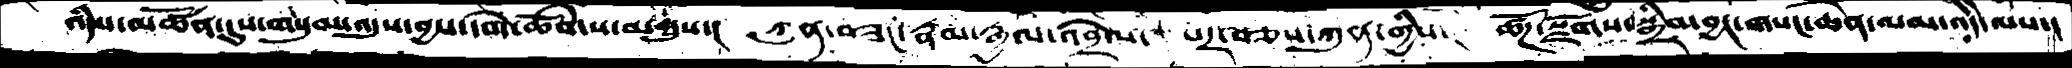འདིས་མཚོན་དུས་གསུམ་འདུས་བྱས་དགེ་ཚོགས་མཐུས་།  ཀུན་བཟང་རྣམ་རྒྱལ་འབྲེལ་  པར་བཅས་ཀུན་གྱིས་།  ཚོཌ་སྫོགས་སྒྲིབ་བྱང་གསང་ཆེན་ལམ་འདི་ལས་།
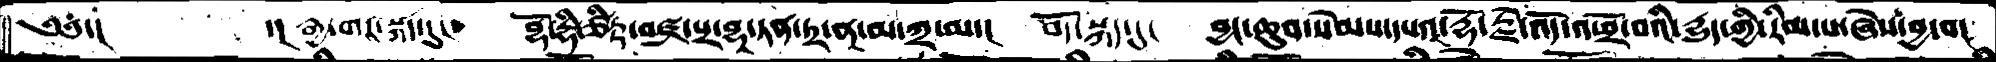༄༅་།     ་།རྒྱ་གར་སྐད་དུ་།  བྷོ་དྷིཙིཏྟ་བཛྲ་པྲ་བྷཱ་ཏན་ཏྲ་ནཱ་མ་ཀྲ་མ་།  བོད་སྐད་དུ།   བྱང་ཆུབ་སེམས་དཔའ་རྡོ་རྗེ་འོད་འཕྲོ་བའི་དྱུད་ཀྱི་རིམ་པ་ཞེས་བྱ་བ།
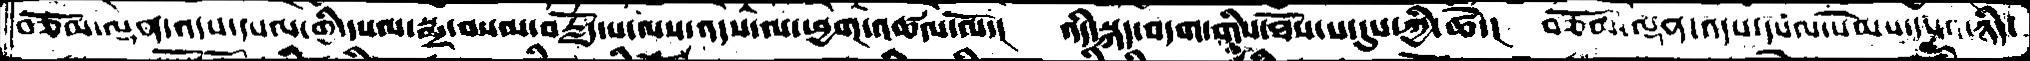བཅོམ་ལྡན་འདས་དཔལ་གྱི་དཔལ་སྨྲ་བསམ་བརྗོད་པ་ལས་འདས་ལ་ཕྱག་འཚལ་ལོ་།  འདི་སྐད་བདག་གིས་ཐོས་པ་དུས་གྱི་ཚེ་།  བཅོམ་ལྡན་འདས་དཔལ་སེམས་དཔའ་ཉིད་
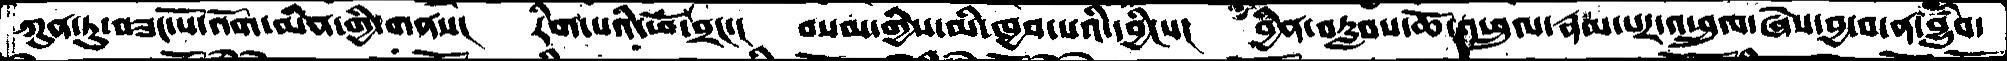ཀུན་ཏུ་བཟང་པོ་འོག་མིན་གྱི་གནས། རིག་པའི་ཕོ་བྲང་། བསམ་གྱིས་མི་ཁྱབ་པའི་དབྱིངས་། བྱིན་བརླབས་ཆོ་འཕྲུལ་རྣམ་པར་འཕྲུལ་ཞེས་བྱ་བ་ན་བྱུབཾ་
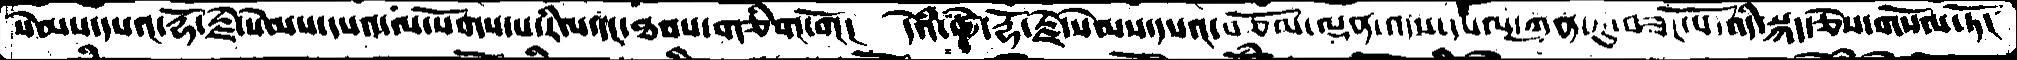སེམས་དཔའ་རྡོ་རྗེ་སེམས་དཔའ་ལ་སོགས་པ་རིལ་དང་ཐབས་གཅིག་གོ།  དེའི་ཚེ་རྡོ་རྗེ་སེམས་དཔའ་བཅོམ་ལྡན་འདས་དཔལ་ཀུན་ཏུ་བཟང་པོ་འདི་སྐད་ཅེས་གསོལ་ཏོ།
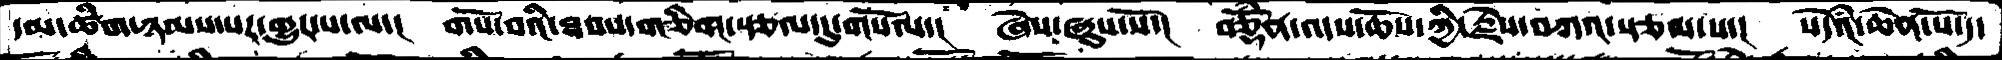དམ་ཚིག་ཉམས་པར་གྱུར་པ་ལ་།  གསོ་བའི་ཐབས་གཅིག་སྩལ་དུ་གསོལ་།  ཞེས་ཞུས་སོ་།  བཅྡོཾན་འདས་ཆོས་ཀྱི་རྗེས་བཀའ་སྩལ་པ་།  སོཾདའ་ཆེན་པོ་དུ་
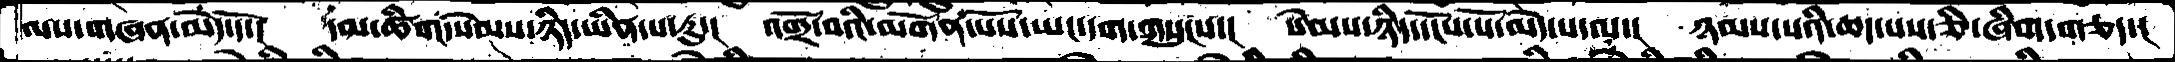ལས་གཞན་མེད་དོ་།  དམ་ཚིག་སེམས་ཉིད་ཡིན་པ་རུ་།  འགྲོ་བའི་མགོན་པོས་ཡང་དག་གསུངས་།  སེམས་ཉིད་དངོས་པོ་མེད་པ་ལ་།  ཉམས་པའི་ཆད་པས་ཅི་ཞིག་གཅད་།
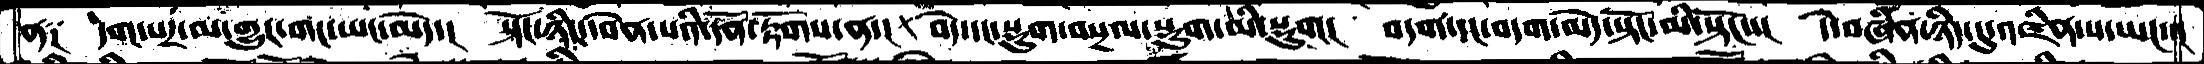ན༑  དག་པར་མ་གྱུར་གང་ཡང་མེད་།  སྟོང་ཉིད་དབེན་པའི་དོན་རྟོགས་ན་།  བདེ་དང་སྡུག་བསྔལ་སྡུག་མི་སྡུག།  བདག་དང་བདག་མེད་སྟོང་མི་སྟོང་།  དེ་བཞིན་ཉིད་དུ་འཛིན་པ་ཡང་་།
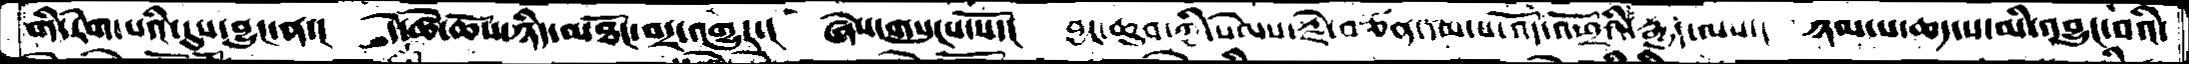གི་རེག་པའི་དུས་བྱུང་ན་།  དེ་ཚེ་ཆོས་ཉིད་མཐོང་བར་འགྱུར་།   ཞེས་གསུངས་སོ་།  བྱང་ཆུབ་ཀྱི་སེམས་རྗེ་བཙན་དམ་པ་འོད་འཕྲོའི་རྒྱུད་ལས་།  ཉམ་པ་ཆད་པ་མི་འབྱུང་་བའི་
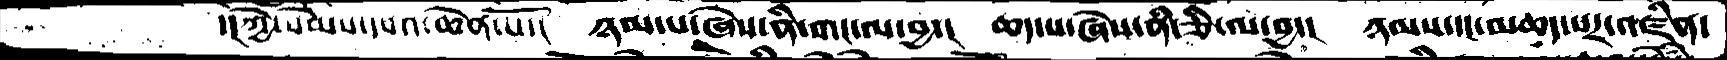་།ཀྱི་སེམས་དཔའ་ཆེན་པོ་།   ཉམ་པ་ཞེས་ནི་གང་ལ་བྱ་།  ཆད་པ་ཞེས་ནི་ཅི་ལ་བྱ་།  ཉམས་དང་མཆད་པར་འཛིན་
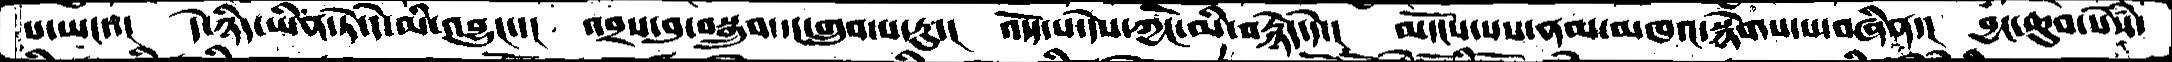པ་ཡང་་།  དེ་ཉིད་ཡིན་ཏེ་དེ་མི་འབྱུང་་།  འབྲས་བུ་བསྒྲུབ་དང་གྲུབ་པ་རུ་།  འདོད་པ་དེས་ཀྱང་མི་བརྙེད་དེ་།  མདོངས་པས་ནམ་མཁའ་སྙེགས་པ་བཞིན་།   བྱང་ཆུབ་སེསཾ་
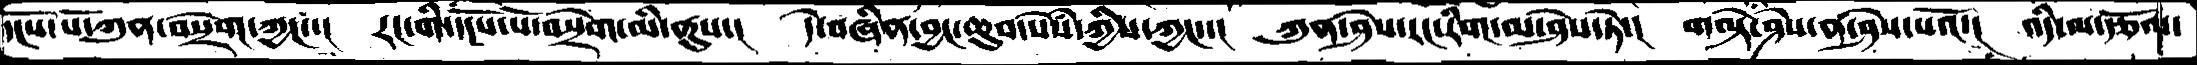དངོས་པོ་ཀུན་་བསྲེག་ཀྱང་།  རང་གི་དངོས་པོ་བསྲེག་མི་ནུས་།  དེ་བཞིན་བྱང་ཆུབ་སེསཾ་ཀྱིས་ཀྱང་་།  ཀུན་ཤེས་རང་རིག་མ་ཤེས་ཏེ་།  གལྟེ་ཤེས་ན་ཤེས་པའོ་།  འདི་ལ་རྩོལ་
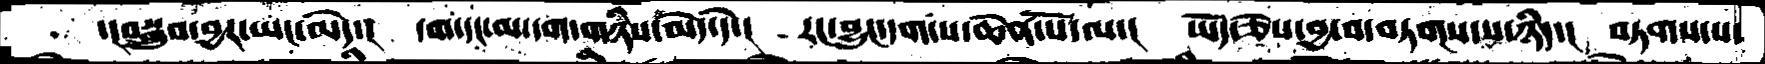་།བསྒྲུབ་བྱར་ཡང་མེད་།  དག་དང་མ་དག་གཉིས་མེད་དེ་།  རང་བྱུང་དག་པ་ཆེན་པོ་ལ་།  ཡོད་ཅེས་བྱ་བ་བཏགས་པ་ཉིད་།  བཏགས་པ་
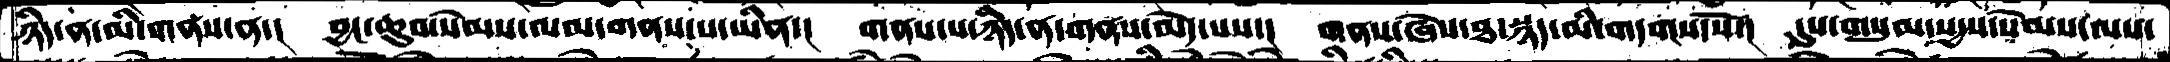ཉིད་ན་མི་གནས་ན་།  བྱང་ཆུབ་སེམས་ལམ་གནས་པ་ཡིན་།  གནས་པ་ཉིད་ན་གནས་མེད་པས་།  གནས་ཞེས་ཐ་སྙད་མི་གདགས་སོ་།  དུས་གསུམ་སདྱས་སེམས་ལས་
